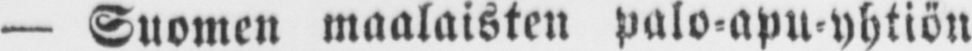— Suomen maalaisten palo-apu-yhtiön
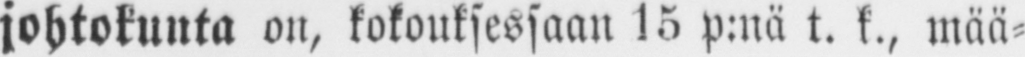johtokunta on, kokouksessaan 15 p:nä t. k., mää-
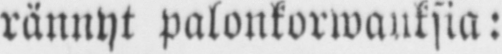rännyt palonkorwauksia:
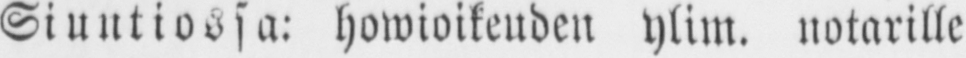Siuntiossa: howioikeuden ylim. notarille
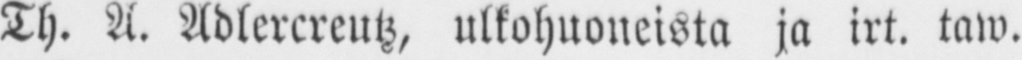Th. A. Adlerereutz, ulkohuoneista ja irt. taw.
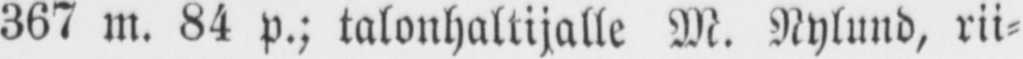367 m. 84 p.; talonhallijalle M. Nylund, rii-
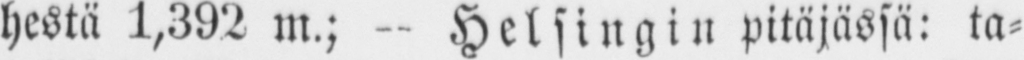hestä 1,392 m.; - Helsingin pitäjässä: ta-
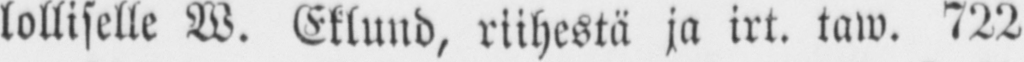lolliselle W. Eklund, riihestä ja krt. taw. 722
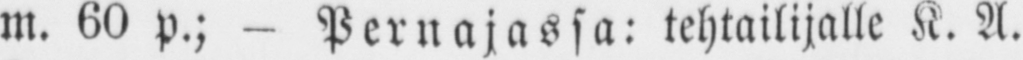m. 60 p.; - Pernajassa: tehtailijalle K. A.
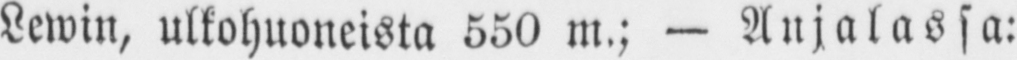Lewin, ulkohuoneista 550 m.; — Anjalassa:
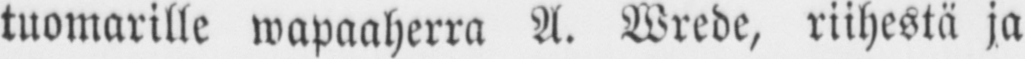tuomarille wapaaherra A. Wrede, riihestä ja
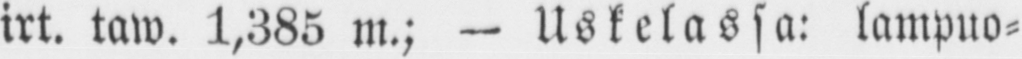irt. taw. 1,385 m.; — Uskelassa: lampuo-
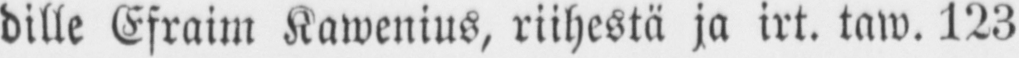dille Efraim Kawenius, riihestä ja irt. taw. 123
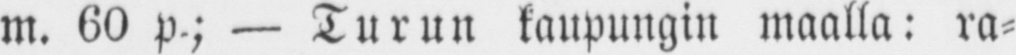m. 60 p.; — Turun kaupungin maalla: ra-
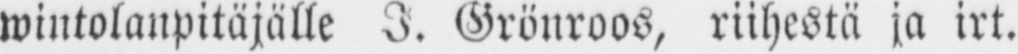wintolanpitäjälle I. Grönroos, riihestä ja irt.
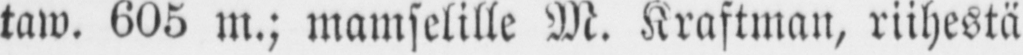taw. 605 m.; mamselille M. Kraftman, riihestä
